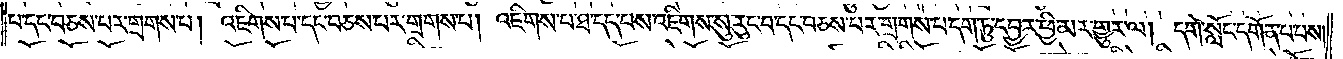པ་དང་བཅས་པར་གྲགས་པ། འཇིགས་པ་དང་བཅས་པར་གྲགས་པ། འཇིགས་པ་ཐ་དད་པས་འཇིགས་སུ་རུང་བ་དང་བཅས་པར་གྲགས་པ་དག་ཏུ་དབྱར་ཕྱི་མར་གྱུར་ལ། དགེ་སློང་དགོན་པ་པས་
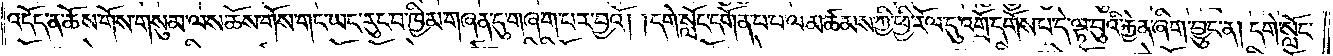འདོད་ན་ཆོས་གོས་གསུམ་ལས་ཆོས་གོས་གང་ཡང་རུང་བ་ཁྱིམ་གཞན་དུ་གཞག་པར་བྱའོ། །དགེ་སློང་དགོན་པ་པ་ལ་མཚམས་ཀྱི་ཕྱི་རོལ་དུ་འགྲོ་དགོས་པ་དེ་ལྟ་བུའི་རྐྱེན་ཞིག་བྱུང་ན། དགེ་སློང་
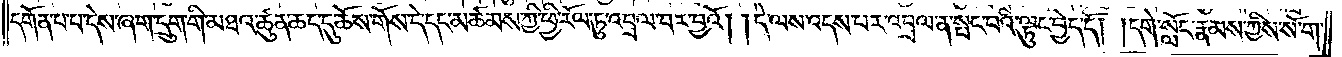དགོན་པ་པ་དེས་ཞག་དྲུག་གི་མཐའ་ཚུན་ཆད་དུ་ཆོས་གོས་དེ་དང་མཚམས་ཀྱི་ཕྱི་རོལ་ཏུ་འབྲལ་བར་བྱའོ། །དེ་ལས་འདས་པར་འབྲལ་ན་སྤང་བའི་ལྟུང་བྱེད་དོ། །དགེ་སློང་རྣམས་ཀྱིས་སོ་ག་
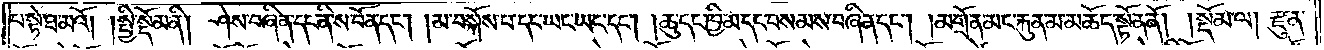པ་སྟེ་ཐ་མའོ། །སྤྱི་སྡོམ་ནི། ཤེས་བཞིན་དང་ནི་ས་བོན་དང༌། མ་བསྐོས་པ་དང་ཡང་ཡང་དང༌། །ཆུ་དང་ཁྱིམ་དང་བསམས་བཞིན་དང༌། མགྲོན་མང་རྐུན་མ་མཆོད་སྟོན་ནོ།    །སྡོམ་ལ། རྫུན་
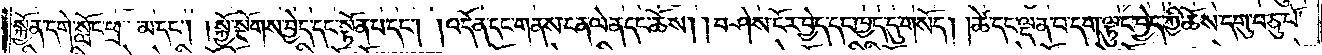སྐྱོན་དགེ་སློང་ཕྲ་མ་དང༌། སྐྱོ་སྔོགས་བྱེད་དང་སྟོན་པ་དང༌། འདོན་དང་གནས་ངན་ལེན་དང་ཆོས། བཤེས་ངོར་བྱེད་དང་ཁྱད་དུ་གསོད། །ཚེ་དང་ལྡན་པ་དག་ལྟུང་བྱེད་ཀྱི་ཆོས་དགུ་བཅུ་པོ་
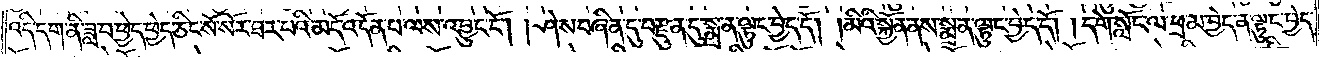འདི་དག་ནི་ཟླ་བ་ཕྱེད་ཕྱེད་ཅིང་སོ་སོར་ཐར་པའི་མདོ་འདོན་པ་ལས་འབྱུང་ངོ༌། །ཤེས་བཞིན་དུ་བརྫུན་དུ་སྨྲ་ན་ལྟུང་བྱེད་དོ། །མིའི་སྐྱོན་ནས་སྨྲ་ན་ལྟུང་བྱེད་དོ། །དགེ་སློང་ལ་ཕྲ་མ་བྱེད་ན་ལྟུང་བྱེད་
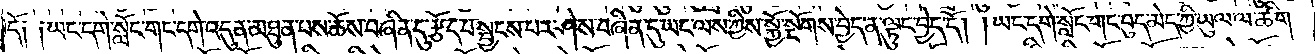དོ༑ ༑ཡང་དགེ་སློང་གང་དགེ་འདུན་མཐུན་པས་ཆོས་བཞིན་དུ་རྩོད་པ་སྦྱངས་པར་ཤེས་བཞིན་དུ་ཡང་ལས་ཀྱིས་སྐྱོ་སྔོགས་བྱེད་ན་ལྟུང་བྱེད་དོ། །ཡང་དགེ་སློང་གང་བུད་མེད་ཀྱི་ཡུལ་ལ་ཚིག་
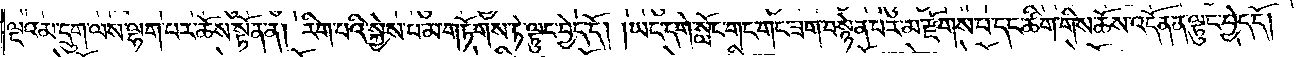ལྔའམ་དྲུག་ལས་ལྷག་པར་ཆོས་སྟོན་ན། རིག་པའི་སྐྱེས་པ་མ་གཏོགས་ཏེ་ལྟུང་བྱེད་དོ། །ཡང་དགེ་སློང་གང་གང་ཟག་བསྙེན་པར་མ་རྫོགས་པ་དང་ཚིག་གིས་ཆོས་འདོན་ན་ལྟུང་བྱེད་དོ། །
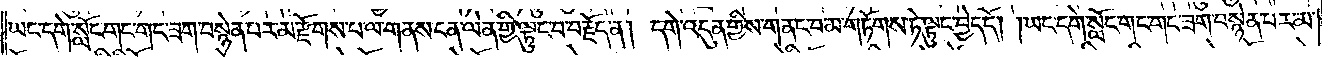ཡང་དགེ་སློང་གང་གང་ཟག་བསྙེན་པར་མ་རྫོགས་པ་ལ་གནས་ངན་ལེན་གྱི་ལྟུང་བ་བརྗོད་ན། དགེ་འདུན་གྱིས་གནང་བ་མ་གཏོགས་ཏེ་ལྟུང་བྱེད་དོ། །ཡང་དགེ་སློང་གང་གང་ཟག་བསྙེན་པར་མ་
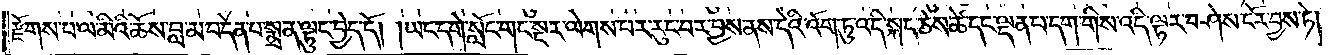རྫོགས་པ་ལ་མིའི་ཆོས་བླ་མ་བདེན་པ་སྨྲ་ན་ལྟུང་བྱེད་དོ། །ཡང་དགེ་སློང་གང་སྔར་ལེགས་པར་རུང་བར་བྱས་ནས་དེའི་འོག་ཏུ་འདི་སྐད་ཅེས་ཚེ་དང་ལྡན་པ་དག་གིས་འདི་ལྟར་བཤེས་ངོར་བྱས་ཏེ།
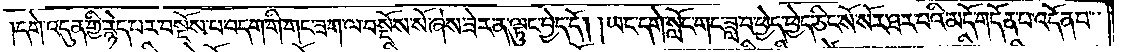།དགེ་འདུན་གྱི་རྙེད་པར་བསྔོས་པ་བདག་གི་གང་ཟག་ལ་བསྔོས་སོ་ཞེས་ཟེར་ན་ལྟུང་བྱེད་དོ། །ཡང་དགེ་སློང་གང་ཟླ་བ་ཕྱེད་ཕྱེད་ཅིང་སོ་སོར་ཐར་པའི་མདོ་གདོན་པ་འདོན་པ་
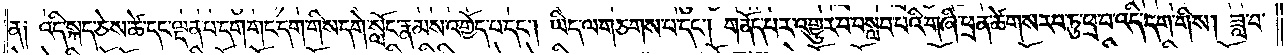ན༑ འདི་སྐད་ཅེས་ཚེ་དང་ལྡན་པ་དག་གང་དག་གིས་དགེ་སློང་རྣམས་འགྱོད་པ་དང༌། ཡིད་ལ་གཅགས་པ་དང༌། གནོད་པར་འགྱུར་བ་བསླབ་པའི་གཞི་ཕྲན་ཚེགས་རབ་ཏུ་ཕྲ་བ་འདི་དག་གིས། ཟླ་བ་
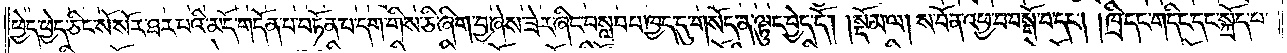ཕྱེད་ཕྱེད་ཅིང་སོ་སོར་ཐར་པའི་མདོ་གདོན་པ་བཏོན་པ་དག་གིས་ཅི་ཞིག་བྱ་ཞེས་ཟེར་ཞིང་བསླབ་པ་ཁྱད་དུ་གསོད་ན་ལྟུང་བྱེད་དོ།    །སྡོམ་ལ། ས་བོན་འཕྱ་བ་བསྒོ་བ་དང༌། །ཁྲི་དང་གདིང་དང་སྐྲོད་པ་
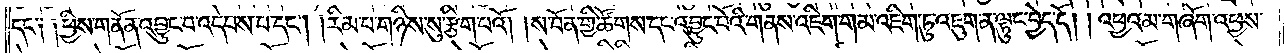དང་༑ ༑ཕྱིས་གནོན་འབྱུང་བ་འདེབས་པ་དང༌། །རིམ་པ་གཉིས་སུ་རྩིག་པའོ། །ས་བོན་གྱི་ཚོགས་དང་འབྱུང་པོའི་གནས་འཇིག་གམ་འཇིག་ཏུ་འཇུག་ན་ལྟུང་བྱེད་དོ། །འཕྱའམ་གཞོག་འཕྱས་
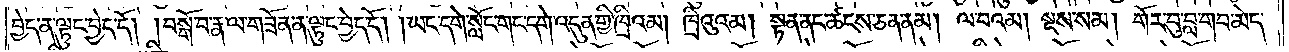བྱེད་ན་ལྟུང་བྱེད་དོ། །བསྒོ་བ་རྣ་ལ་གཟོན་ན་ལྟུང་བྱེད་དོ། །ཡང་དགེ་སློང་གང་དགེ་འདུན་གྱི་ཁྲིའམ། ཁྲིའུའམ། སྟན་ནང་ཚངས་ཅན་ནམ། ལ་བའམ། སྔས་སམ། གོར་བུ་བླ་གབ་མེད་
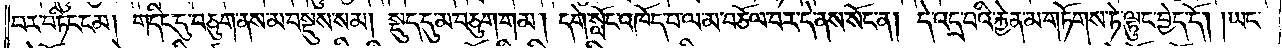བར་བཏིང་ངམ། གདིང་དུ་བཅུག་ནས་མ་བསྡུས་སམ། སྡུད་དུ་མ་བཅུག་གམ། དགེ་སློང་འཁོད་པ་ལ་མ་བཅོལ་བར་དེ་ནས་སོང་ན། དེ་འདྲ་བའི་རྐྱེན་མ་གཏོགས་ཏེ་ལྟུང་བྱེད་དོ། །ཡང་
